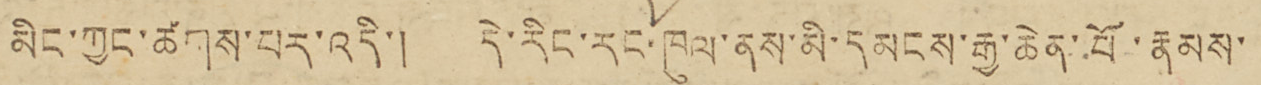མིང་ཀྱང་ཚགས་པར་འདི་། དེ་རིང་རང་ཁུལ་ནས་མི་དམངས་རྒྱ་ཆེན་པོ་རྣམས་
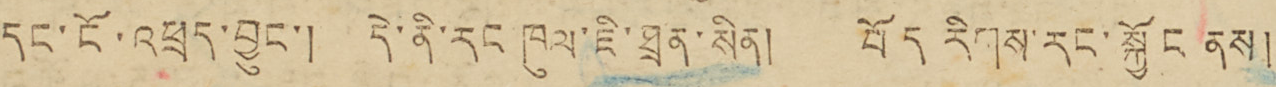དང་ངོ་འཕྲད་བྱུང་། དེ་ནི་རང ཁུལ་ཇི་ཐྲན་སིན། བོད རིགས་རང་སྐྱོང ནས།
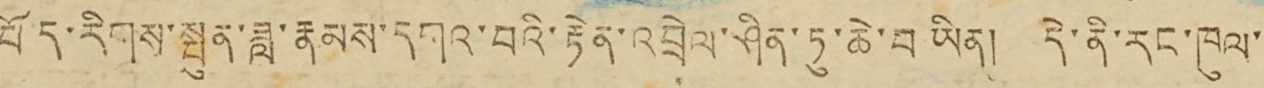བོད་རིགས་སྤུན་ཟླ་རྣམས་དགའ་བའི་རྟེན་འབྲེལ་ཤིན་ཏུ་ཆེ་བ ཡིན། དེ་ནི་རང་ཁུལ་
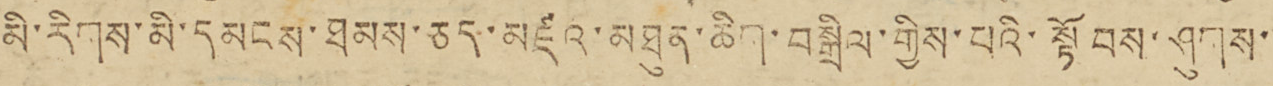མི་རིགས་མི་དམངས་ཐམས་ཅད་མཛའ་མཐུན་ཆིག་བསྒྲིལ་གྱིས་པའི་སྟོབས་ཤུགས་
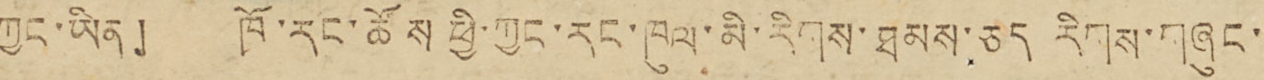ཀྱང་ཡིན། ཁོ་རང་ཚོས ཕྱི་ཀྱང་རང་ཁུལ་མི་རིགས་ཐམས་ཅད རིགས་གཞུང་
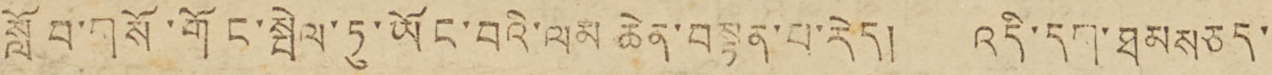སློབ་གསོ་གོང་སྤེལ་ཏུ་ཡོང་བའི་ལམ ཆེན་བསྟན་པ་རེད། འདི་དག་ཐམསཅད་
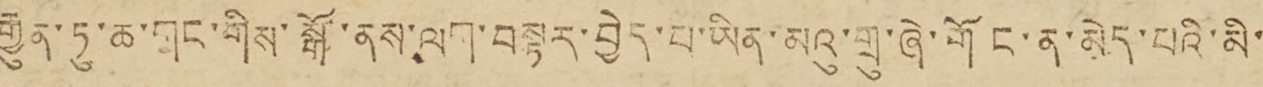རྒྱུན་ཏུ་ཆ་གང་གིས་སྒོ་ནག་ལག་བསྟར་བྱེད་པ་ཡིན་མའུ་གྲུ་ཞེ་གོང་ན་མེད་པའི་མི་
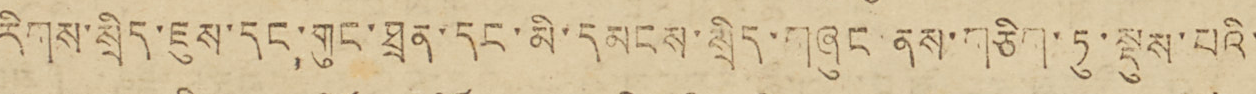རིགས་སྲིད་ཇུས་དང་གུང་ཐྲན་དང་མི་དམངས་སྲིད་གཞུང ནས་གཅིག་ཏུ་སྡུས་པའི་
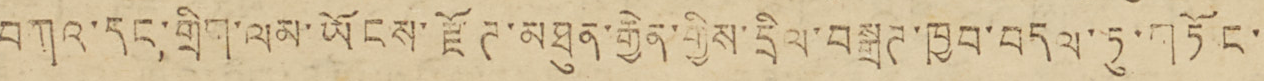བཀའ་དང་གྲིག་ལམ་ཡོངས་རྫོཊ་མཐུན་རྒྱེན་གྱིས་དྲིལ་བསྐྲཊ་ཁྱབ་བདལ་ཏུ་གཏོང་
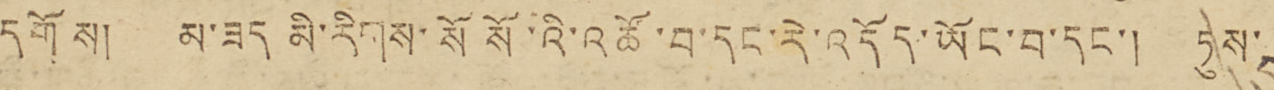དགོས། མ་ཟད མི་རིགས་སོ སོ་འི་འཚོ་བ་དང་རེ་འདོད་ཡོང་བ་དང་། ཏུས་
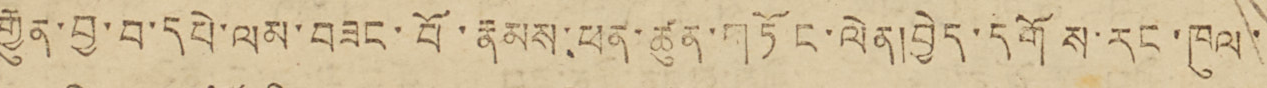རྒྱུན་བྱ་བ་དཔེ་ལམ་བཟང་པོ་རྣམས་ཕན་ཚུན་གཏོང་ལེན།བྱེད་དགོས་རང་ཁུལ་
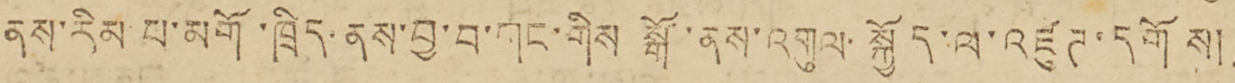ནས་རིམ པ་མགོ་ཁྲིད་ནས་བྱ་བ་གང་གིས སྒོ་ནས་འགུལ་སྐྱོད་ལ་འཛུཊ་དགོས།
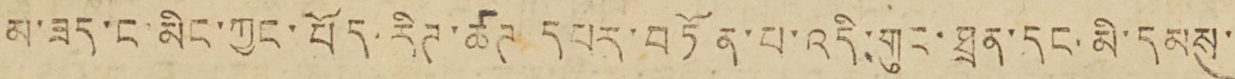མ་ཟད་ང་མིང་ཀྱང་བོད་རིཊ་ཚཊ དཔར་བཏོན་པ་འདི་གུང་ཐྲན་དང་མི་དམས
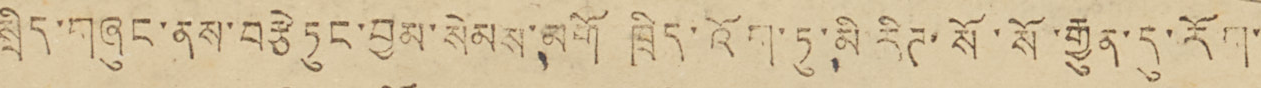སྲིད་གཞུང་ནས་བརྩེ ཏུང་བྱམ་སེམས་མགོ ཁྲིད་འོག་ཏུ་མི རིཊ་སོ་སོ་རྒྱུན་དུ་རོག་
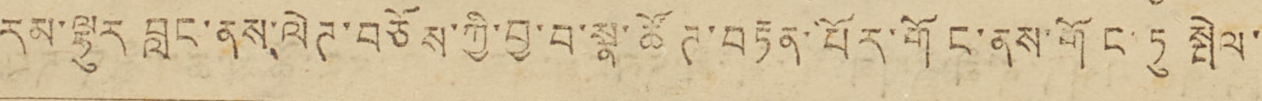རམ་ལྷུར བླང་ནས་ལེཊ་བཅོས་ཀྱི་བྱ་བ་སྣ་ཚོཊ་བརྟན་པོར་གོང་ནས་གོང་ཏུ སྤེལ་
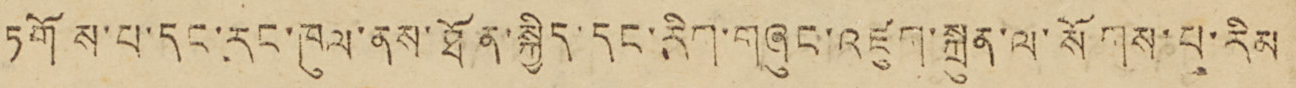ཏགོས་པ་དང་རང་ཁུལ་ནས་ཐོན་སྐྱེད་དང་རིག་གཞུང་འཛུག་སྐྲུན་ལ་སོགས་པ་རིམ
